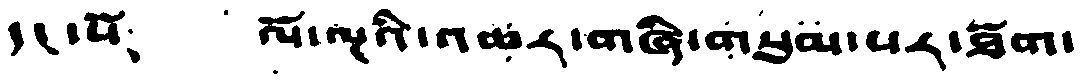དང་པོ、 ལོ་ལྔའི་འཆར་གཞི་གསུམ་པར་ཐོག་
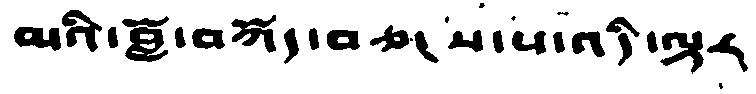མའི་བྱོ་བཀོད་བཅངས་པ་འདི་ལྟར་
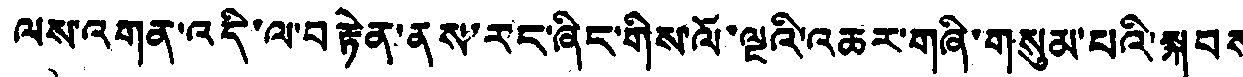ལས་འགན་འདི་ལ་བརྟེན་ནས་རང་ཞིང་གིས་ལོ་ལྔའི་འཆར་གཞི་གསུམ་པའི་སྐབས
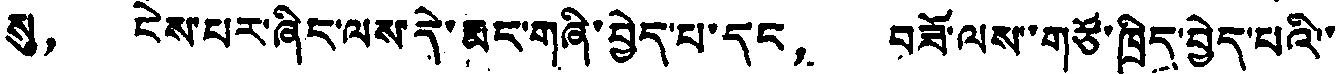སུ， ངེས་པར་ཞིང་ལས་དེ་རྨང་གཞི་བྱེད་པ་དང， བཟོ་ལས་གཙོ་ཁྲིད་བྱེད་པའི་་
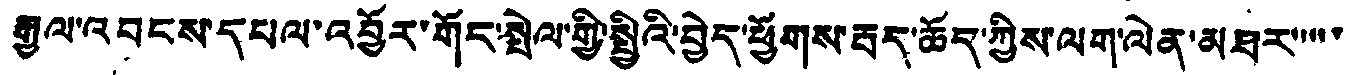རྒྱལ་འབངས་དཔལ་འབྱོར་གོད་སྤེལ་གྱི་སྤྱིའི་བྱེད་ཕྱོགས་རྦད་ཆོད་ཀྱིས་ལག་ལེན་མཐར་་་་་
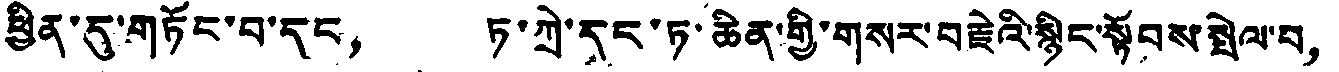ཕྱིན་དུ་གཏོང་བ་དང， ཏ་ཀྲེ་དད་ཏ་ཆིན་གྱི་གསར་བརྗེའི་སྙིང་སྟོབས་སྤེལ་བ，
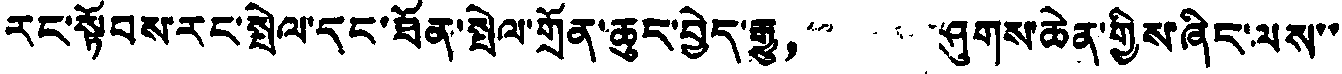རང་སྟོབས་རང་སྤེལ་དང་ཐོན་སྤེལ་གྲོན་ཆུད་བྱེད་རྒྱུ， ཤུགས་ཆེན་གྱིས་ཞིང་ལས་་
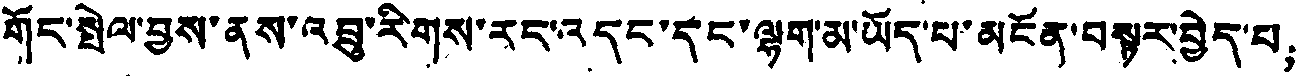གོང་སྤེལ་བྱས་ནས་འབྲུ་རིགས་རང་འདང་དང་ལྷག་མ་ཡོད་པ་མངོན་བསྟར་བྱེད་པ；
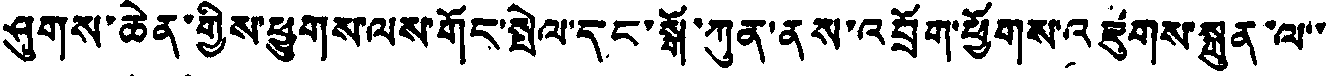ཤུགས་ཆེན་གྱིས་ཕྱུགས་ལས་གོད་སྤེལ་དང་སྒོ་ཀུན་ནས་འབྲོག་ཕྱོགས་འཛུགས་སྐྲུན་ལ་་
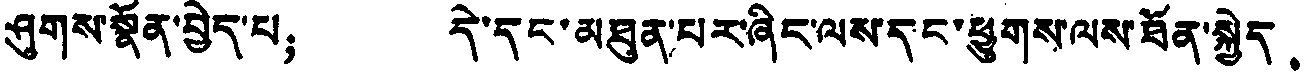ཤུགས་སྣོན་བྱེད་པ； དེ་དང་མཐུན་པར་ཞིང་ལས་དང་ཕྱུགས་ལས་ཐོན་སྐྱེད、
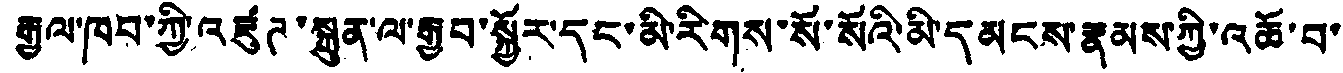རྒྱལ་ཁབ་ཀྱི་འཛུཊ་སྐྲུན་ལ་རྒྱབ་སྐྱོར་དང་མི་རིགས་སོ་སོའི་མི་དམངས་རྣམས་ཀྱི་འཚོ་བ་
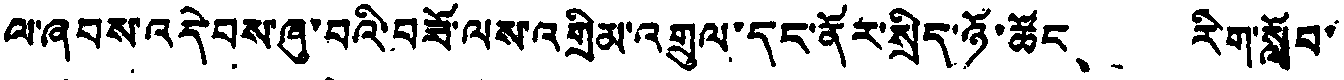ལ་ཞབས་འདེབས་ཞུ་བའི་བཟོ་ལས་འགྲིམ་འགྲུལ་དང་ནོར་སྲིད་ཉོ་ཚོང、 རིག་སློབ་
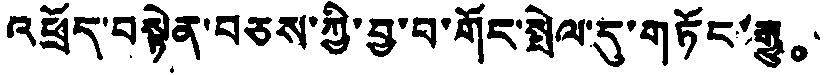འཕྲོད་བསྟེན་བཅས་ཀྱི་བྱ་བ་གོད་སྤེལ་དུ་གཏོང་རྒྱུ。
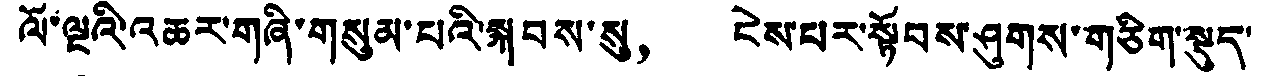ལོ་ལྔའི་འཆར་གཞི་གསུམ་པའི་སྐབས་སུ， ངེས་པར་སྟོབས་ཤུགས་གཅིག་སྡུད་
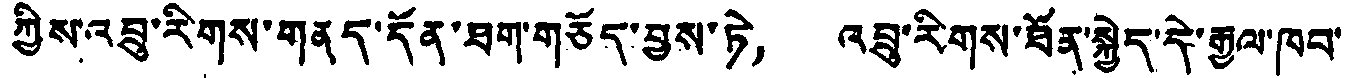ཀྱིས་འབྲུ་རིགས་གནད་དོན་ཐག་གཅོད་བྱས་ཏེ， འབྲུ་རིགས་ཐོན་སྐྱེད་དེ་རྒྱལ་ཁབ་
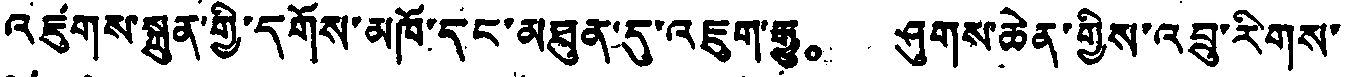འཛུགས་སྐྲུན་གྱི་དགོས་མཁོ་དང་མཐུན་དུ་འཇུག་རྒྱུ。 ཤུགས་ཆེན་གྱིས་འབྲུ་རིགས་
